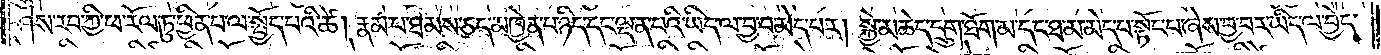ཤེས་རབ་ཀྱི་ཕ་རོལ་ཏུ་ཕྱིན་པ་ལ་སྤྱོད་པའི་ཚེ། རྣམ་པ་ཐམས་ཅད་མཁྱེན་པ་ཉིད་དང་ལྡན་པའི་ཡིད་ལ་བྱ་བ་མེད་པར། སྐྱེ་མཆེད་དྲུག་ཐོག་མ་དང་ཐ་མ་མེད་པ་སྟོང་པ་ཞེས་བྱ་བར་ཡིད་ལ་བྱེད་
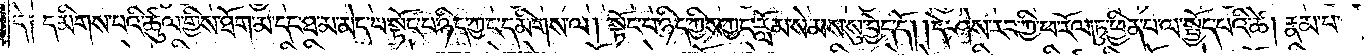དེ། དམིགས་པའི་ཚུལ་གྱིས་ཐོག་མ་དང་ཐ་མ་མེད་པ་སྟོང་པ་ཉིད་ཀྱང་དམིགས་ལ། སྟོང་པ་ཉིད་ཀྱིས་ཀྱང་རློམ་སེམས་སུ་བྱེད་དོ། །དེ་ཤེས་རབ་ཀྱི་ཕ་རོལ་ཏུ་ཕྱིན་པ་ལ་སྤྱོད་པའི་ཚེ། རྣམ་པ་
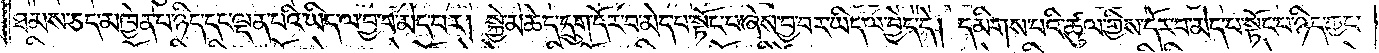ཐམས་ཅད་མཁྱེན་པ་ཉིད་དང་ལྡན་པའི་ཡིད་ལ་བྱ་བ་མེད་པར། སྐྱེ་མཆེད་དྲུག་དོར་བ་མེད་པ་སྟོང་བ་ཞེས་བྱ་བར་ཡིད་ལ་བྱེད་དེ། དམིགས་པའི་ཚུལ་གྱིས་དོར་བ་མེད་པ་སྟོང་པ་ཉིད་ཀྱང་
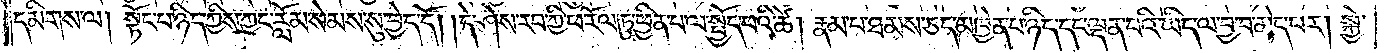དམིགས་ལ། སྟོང་པ་ཉིད་ཀྱིས་ཀྱང་རློམ་སེམས་སུ་བྱེད་དོ། །དེ་ཤེས་རབ་ཀྱི་ཕ་རོལ་ཏུ་ཕྱིན་པ་ལ་སྤྱོད་པའི་ཚེ། རྣམ་པ་ཐམས་ཅད་མཁྱེན་པ་ཉིད་དང་ལྡན་པའི་ཡིད་ལ་བྱ་བ་མེད་པར། སྐྱེ་
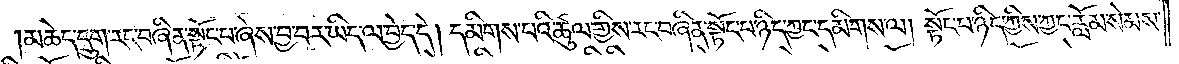མཆེད་དྲུག་རང་བཞིན་སྟོང་པ་ཞེས་བྱ་བར་ཡིད་ལ་བྱེད་དེ། དམིགས་པའི་ཚུལ་གྱིས་རང་བཞིན་སྟོང་པ་ཉིད་ཀྱང་དམིགས་ལ། སྟོང་པ་ཉིད་ཀྱིས་ཀྱང་རློམ་སེམས་
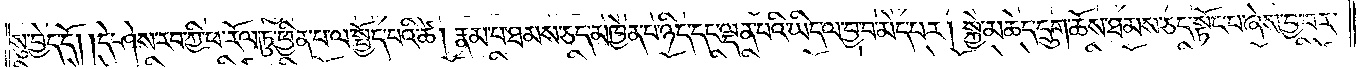སུ་བྱེད་དོ། །དེ་ཤེས་རབ་ཀྱི་ཕ་རོལ་ཏུ་ཕྱིན་པ་ལ་སྤྱོད་པའི་ཚེ། རྣམ་པ་ཐམས་ཅད་མཁྱེན་པ་ཉིད་དང་ལྡན་པའི་ཡིད་ལ་བྱ་བ་མེད་པར། སྐྱེ་མཆེད་དྲུག་ཆོས་ཐམས་ཅད་སྟོང་པ་ཞེས་བྱ་བར་
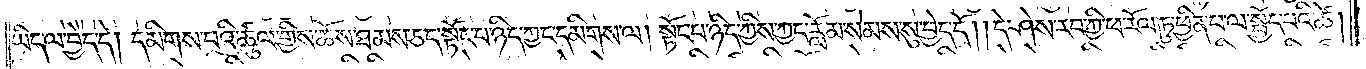ཡིད་ལ་བྱེད་དེ། དམིགས་པའི་ཚུལ་གྱིས་ཆོས་ཐམས་ཅད་སྟོང་པ་ཉིད་ཀྱང་དམིགས་ལ། སྟོང་པ་ཉིད་ཀྱིས་ཀྱང་རློམ་སེམས་སུ་བྱེད་དོ། །དེ་ཤེས་རབ་ཀྱི་ཕ་རོལ་ཏུ་ཕྱིན་པ་ལ་སྤྱོད་པའི་ཚེ།
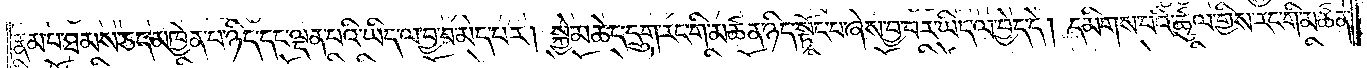རྣམ་པ་ཐམས་ཅད་མཁྱེན་པ་ཉིད་དང་ལྡན་པའི་ཡིད་ལ་བྱ་བ་མེད་པར། སྐྱེ་མཆེད་དྲུག་རང་གི་མཚན་ཉིད་སྟོང་པ་ཞེས་བྱ་བར་ཡིད་ལ་བྱེད་དེ། དམིགས་པའི་ཚུལ་གྱིས་རང་གི་མཚན་
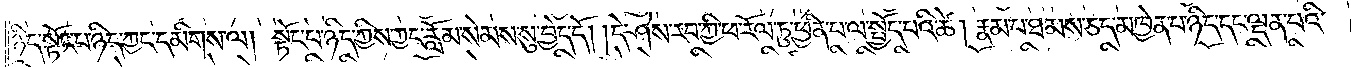ཉིད་སྟོང་པ་ཉིད་ཀྱང་དམིགས་ལ། སྟོང་པ་ཉིད་ཀྱིས་ཀྱང་རློམ་སེམས་སུ་བྱེད་དོ། །དེ་ཤེས་རབ་ཀྱི་ཕ་རོལ་ཏུ་ཕྱིན་པ་ལ་སྤྱོད་པའི་ཚེ། རྣམ་པ་ཐམས་ཅད་མཁྱེན་པ་ཉིད་དང་ལྡན་པའི་
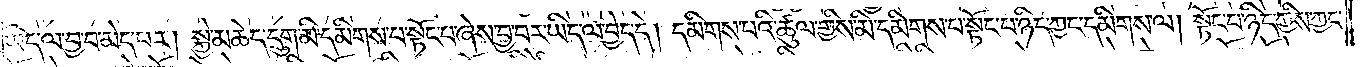ཡིད་ལ་བྱ་བ་མེད་པར། སྐྱེ་མཆེད་དྲུག་མི་དམིགས་པ་སྟོང་པ་ཞེས་བྱ་བར་ཡིད་ལ་བྱེད་དེ། དམིགས་པའི་ཚུལ་གྱིས་མི་དམིགས་པ་སྟོང་པ་ཉིད་ཀྱང་དམིགས་ལ། སྟོང་པ་ཉིད་ཀྱིས་ཀྱང་
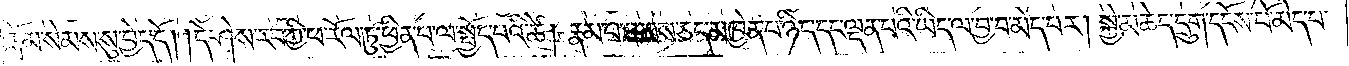རློམ་སེམས་སུ་བྱེད་དོ། །དེ་ཤེས་རབ་ཀྱི་ཕ་རོལ་ཏུ་ཕྱིན་པ་ལ་སྤྱོད་པའི་ཚེ། རྣམ་པ་ཐམས་ཅད་མཁྱེན་པ་ཉིད་དང་ལྡན་པའི་ཡིད་ལ་བྱ་བ་མེད་པར། སྐྱེ་མཆེད་དྲུག་དངོས་པོ་མེད་པ་
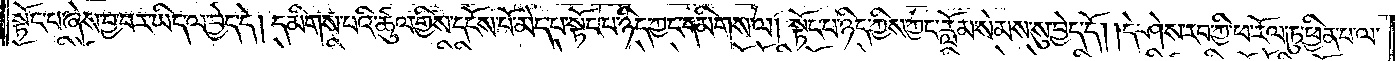སྟོང་པ་ཞེས་བྱ་བར་ཡིད་ལ་བྱེད་དེ། དམིགས་པའི་ཚུལ་གྱིས་དངོས་པོ་མེད་པ་སྟོང་པ་ཉིད་ཀྱང་དམིགས་ལ། སྟོང་པ་ཉིད་ཀྱིས་ཀྱང་རློམ་སེམས་སུ་བྱེད་དོ། །དེ་ཤེས་རབ་ཀྱི་ཕ་རོལ་ཏུ་ཕྱིན་པ་ལ་
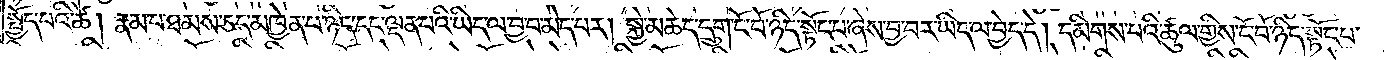སྤྱོད་པའི་ཚེ། རྣམ་པ་ཐམས་ཅད་མཁྱེན་པ་ཉིད་དང་ལྡན་པའི་ཡིད་ལ་བྱ་བ་མེད་པར། སྐྱེ་མཆེད་དྲུག་ངོ་བོ་ཉིད་སྟོང་པ་ཞེས་བྱ་བར་ཡིད་ལ་བྱེད་དེ། དམིགས་པའི་ཚུལ་གྱིས་ངོ་བོ་ཉིད་སྟོང་པ་
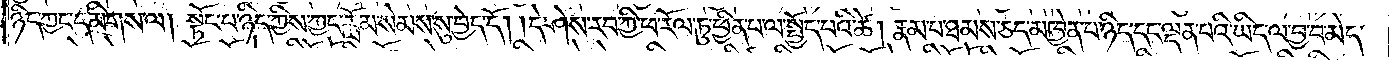ཉིད་ཀྱང་དམིགས་ལ། སྟོང་པ་ཉིད་ཀྱིས་ཀྱང་རློམ་སེམས་སུ་བྱེད་དོ། །དེ་ཤེས་རབ་ཀྱི་ཕ་རོལ་ཏུ་ཕྱིན་པ་ལ་སྤྱོད་པའི་ཚེ། རྣམ་པ་ཐམས་ཅད་མཁྱེན་པ་ཉིད་དང་ལྡན་པའི་ཡིད་ལ་བྱ་བ་མེད་
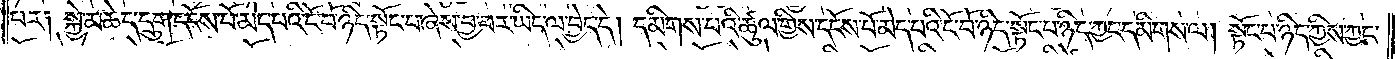པར༑ སྐྱེ་མཆེད་དྲུག་དངོས་པོ་མེད་པའི་ངོ་བོ་ཉིད་སྟོང་པ་ཞེས་བྱ་བར་ཡིད་ལ་བྱེད་དེ། དམིགས་པའི་ཚུལ་གྱིས་དངོས་པོ་མེད་པའི་ངོ་བོ་ཉིད་སྟོང་པ་ཉིད་ཀྱང་དམིགས་ལ། སྟོང་པ་ཉིད་ཀྱིས་ཀྱང་
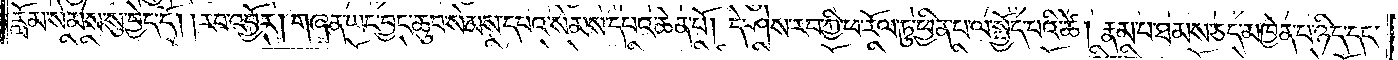རློམ་སེམས་སུ་བྱེད་དོ། །རབ་འབྱོར། གཞན་ཡང་བྱང་ཆུབ་སེམས་དཔའ་སེམས་དཔའ་ཆེན་པོ། དེ་ཤེས་རབ་ཀྱི་ཕ་རོལ་ཏུ་ཕྱིན་པ་ལ་སྤྱོད་པའི་ཚེ། རྣམ་པ་ཐམས་ཅད་མཁྱེན་པ་ཉིད་དང་
